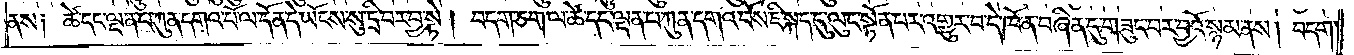ནས༑ ཚེ་དང་ལྡན་པ་ཀུན་དགའ་པོ་ལ་དོན་དེ་ཡོངས་སུ་དྲི་བར་བྱ་སྟེ། བདག་ཅག་ལ་ཚེ་དང་ལྡན་པ་ཀུན་དགའ་བོས་ཇི་སྐད་དུ་ལུང་སྟོན་པར་འགྱུར་བ་དེ་ཁོ་ན་བཞིན་དུ་གཟུང་བར་བྱའོ་སྙམ་ནས། བདག་
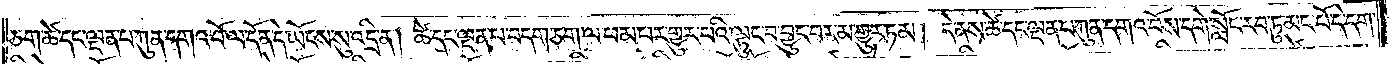ཅག་ཚེ་དང་ལྡན་པ་ཀུན་དགའ་བོ་ལ་དོན་དེ་ཡོངས་སུ་འདྲི་ན། ཚེ་དང་ལྡན་པ་བདག་ཅག་ལ་ཕམ་པར་གྱུར་པའི་ལྟུང་བ་བྱུང་བར་མ་གྱུར་ཏམ། དེ་ནས་ཚེ་དང་ལྡན་པ་ཀུན་དགའ་བོས་དགེ་སློང་རབ་ཏུ་མང་པོ་དེ་དག་
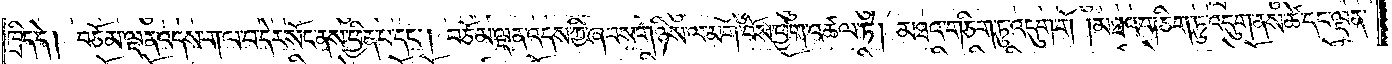ཁྲིད་དེ། བཅོམ་ལྡན་འདས་ག་ལ་བ་དེར་སོང་ནས་ཕྱིན་པ་དང༌། བཅོམ་ལྡན་འདས་ཀྱི་ཞབས་གཉིས་ལ་མགོ་བོས་ཕྱག་འཚལ་ཏེ། མཐའ་གཅིག་ཏུ་འདུག་གོ །མཐའ་གཅིག་ཏུ་འདུག་ནས་ཚེ་དང་ལྡན་
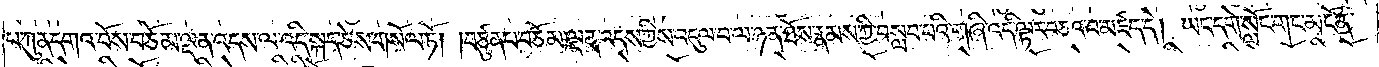པ་ཀུན་དགའ་བོས་བཅོམ་ལྡན་འདས་ལ་འདི་སྐད་ཅེས་གསོལ་ཏོ། །བཙུན་པ་བཅོམ་ལྡན་འདས་ཀྱིས་འདུལ་བ་ལ་ཉན་ཐོས་རྣམས་ཀྱི་བསླབ་པའི་གཞི་འདི་ལྟར་བཅའ་བ་མཛད་དེ། ཡང་དགེ་སློང་གང་མངོན་
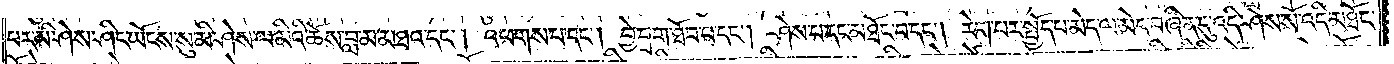པར་མི་ཤེས་ཤིང་ཡོངས་སུ་མི་ཤེས་ལ་མིའི་ཆོས་བླ་མ་མཐའ་དང༌། འཕགས་པ་དང༌། བྱེ་བྲག་ཐོབ་པ་དང༌། ཤེས་པ་དང་མཐོང་བ་དང༌། རེག་པར་སྤྱོད་པ་མེད་ལ་མེད་བཞིན་དུ་འདི་ཤེས་སོ་འདི་མཐོང་
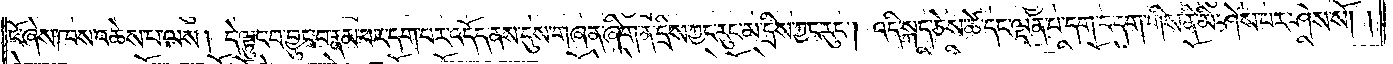ངོ་ཞེས་ཁས་འཆེས་པ་ལས། དེ་ལྟུང་བ་བྱུང་བ་རྣམ་པར་དག་པར་འདོད་ནས་དུས་གཞན་ཞིག་ན་དྲིས་ཀྱང་རུང་མ་དྲིས་ཀྱང་རུང༌། འདི་སྐད་ཅེས་ཚེ་དང་ལྡན་པ་དག་བདག་གིས་ནི་མི་ཤེས་པར་ཤེས་སོ། །
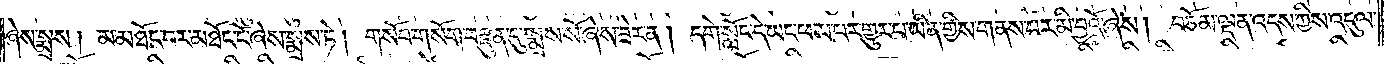ཞེས་སྨྲས། མ་མཐོང་བར་མཐོང་ངོ་ཞེས་སྨྲས་ཏེ། གསོབ་གསོག་བརྫུན་དུ་སྨྲས་སོ་ཞེས་ཟེར་ན། དགེ་སློང་དེ་ཡང་ཕམ་པར་གྱུར་པ་ཡིན་གྱིས་གནས་པར་མི་བྱའོ་ཞེས། བཅོམ་ལྡན་འདས་ཀྱིས་འདུལ་
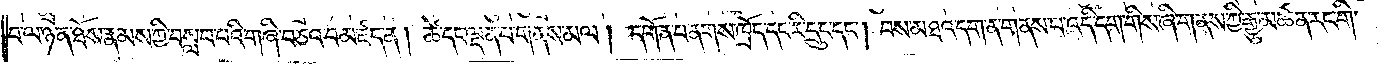བ་ལ་ཉན་ཐོས་རྣམས་ཀྱི་བསླབ་པའི་གཞི་བཅའ་བ་མཛད་ན། ཚེ་དང་ལྡན་པ་གནས་མལ། དགོན་པ་ནགས་ཁྲོད་དང་རི་དྲུང་དང༌། བས་མཐའ་དག་ན་གནས་པ་འདི་དག་གིས་ཞི་གནས་ཀྱི་རྒྱུ་མཚན་རང་གི་
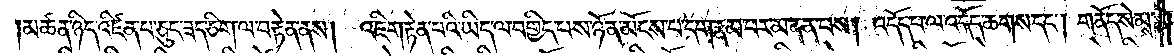མཚན་ཉིད་འཛིན་པ་ཅུང་ཟད་ཅིག་ལ་བརྟེན་ནས། འཇིག་རྟེན་པའི་ཡིད་ལ་བགྱིད་པས་ཉོན་མོངས་པ་དག་རྣམ་པར་མནན་པས། འདོད་པ་ལ་འདོད་ཆགས་དང༌། གནོད་སེམས་
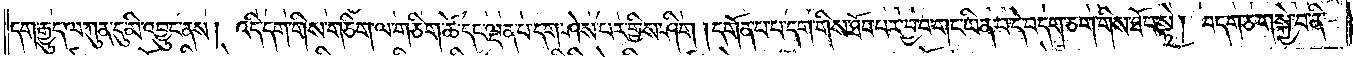དག་རྒྱུད་ལ་ཀུན་དུ་མི་འབྱུང་ནས། འདི་དག་གིས་གཅིག་ལ་གཅིག་ཚེ་དང་ལྡན་པ་དག་ཤེས་པར་གྱིས་ཤིག །དགོན་པ་པ་དག་གིས་ཐོབ་པར་བྱ་བ་གང་ཡིན་པ་དེ་བདག་ཅག་གིས་ཐོབ་སྟེ། བདག་ཅག་སྐྱེ་བ་ནི་
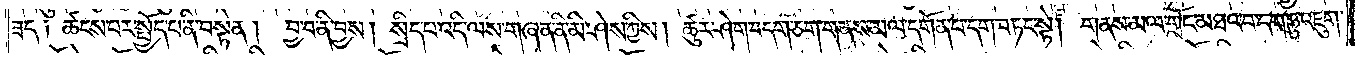ཟད༑ ཚངས་པར་སྤྱོད་པ་ནི་བསྟེན། བྱ་བ་ནི་བྱས། སྲིད་པ་འདི་ལས་གཞན་ནི་མི་ཤེས་ཀྱིས། ཚུར་ཤེག་བདག་ཅག་གནས་མལ་དགོན་པ་དག་བཏང་སྟེ། གནས་མལ་གྲོང་མཐའ་བ་དག་ཏུ་འཇུག་
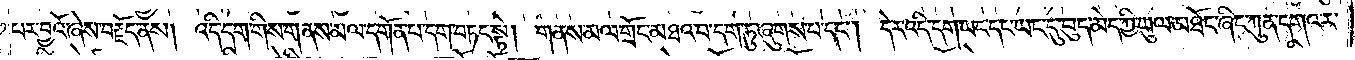པར་བྱའོ་ཞེས་བརྗོད་ནས། འདི་དག་གིས་གནས་མལ་དགོན་པ་དག་བཏང་སྟེ། གནས་མལ་གྲོང་མཐའ་བ་དག་ཏུ་ཞུགས་པ་དང༌། དེར་འདི་དག་ཡང་དང་ཡང་དུ་བུད་མེད་ཀྱི་ཡུལ་མཐོང་ཞིང་ཀུན་དགའ་ར་
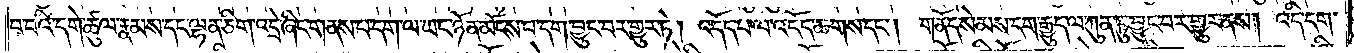བ་བའི་དགེ་ཚུལ་རྣམས་དང་ལྷན་ཅིག་འདྲེ་ཞིང་གནས་པ་དག་ལ་ཡང་ཉོན་མོངས་པ་དག་བྱུང་བར་གྱུར་ཏེ། འདོད་པ་ལ་འདོད་ཆགས་དང༌། གནོད་སེམས་དག་རྒྱུད་ལ་ཀུན་ཏུ་བྱུང་བར་གྱུར་ནས། འདི་དག་
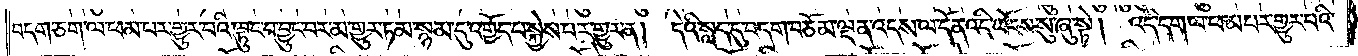བདག་ཅག་ལ་ཕམ་པར་གྱུར་བའི་ལྟུང་བ་བྱུང་བར་མ་གྱུར་ཏམ་སྙམ་དུ་འགྱོད་པ་སྐྱེས་པར་གྱུར་ན། དེའི་སླད་དུ་བདག་བཅོམ་ལྡན་འདས་ལ་དོན་འདི་ཡོངས་སུ་ཞུ་སྟེ། འདི་དག་ལ་ཕམ་པར་གྱུར་པའི་
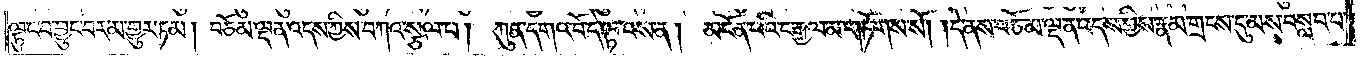ལྟུང་བ་བྱུང་བར་མ་གྱུར་ཏམ། བཅོམ་ལྡན་འདས་ཀྱིས་བཀའ་སྩལ་པ། ཀུན་དགའ་བོ་དེ་ལྟ་བས་ན། མངོན་པའི་ང་རྒྱལ་མ་གཏོགས་སོ། །དེ་ནས་བཅོམ་ལྡན་འདས་ཀྱིས་རྣམ་གྲངས་དུ་མས་བསླབ་པ་
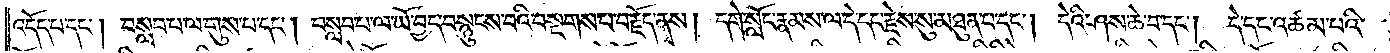འདོད་པ་དང༌། བསླབ་པ་ལ་གུས་པ་དང༌། བསླབ་པ་ལ་ཡོ་བྱད་བསྙུངས་པའི་བསྔགས་པ་བརྗོད་ནས། དགེ་སློང་རྣམས་ལ་དེ་དང་རྗེས་སུ་མཐུན་པ་དང༌། དེའི་ཤས་ཆེ་བ་དང༌། དེ་དང་འཚམ་པའི་
